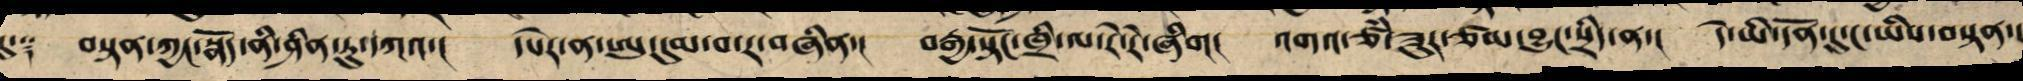དུ་༑ བསྟན་ཀྱང་སྣོད་ནི་ཤིན་ཏུ་དཀའ་། དཔེར་ན་ཨུ་དུམ་བ་ར་བཞིན་། བརྒྱ་སྟོང་ཁྲི་ལས་རེ་རེ་ཞིག། འགའ་ཙཾ་ཟུར་ཙམ་འབྱུང་སྲིད་ན་། དེ་ཡི་དོན་དུ་ང་ཡིས་བསྟན་།
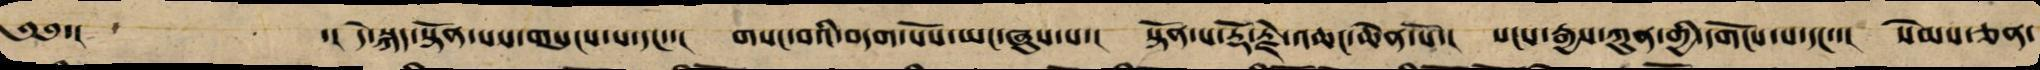༄༅་། ་། དེ་སྐད་སྟོན་པས་གསུངས་པ་དང་་། གསང་བའི་བདག་པོས་ཡང་ཞུས་པ་། སྟོན་པ་རྡོ་རྗེ་འཆང་ཆེན་པོ་། སངས་རྒྱས་ཀུན་གྱི་དགོངས་པ་དང་་། སེམས་ཅན་
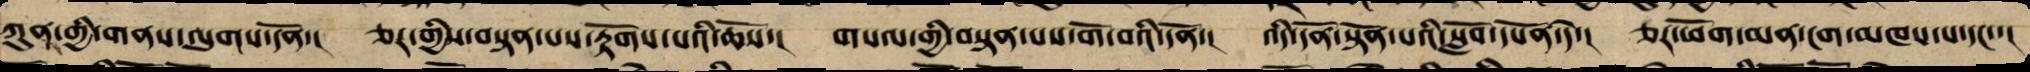ཀུན་གྱི་གནས་ལུགས་དོན་། ཅར་གྱིས་བསྟན་པས་རྟོགས་པའི་ཆོས་། གསལ་གྱི་བསྟན་པས་གོ་བའི་དོན་། འདི་དོན་སྟོན་པའི་སློབ་དཔོན་དེ་། ཅར་ཕོག་མན་ངག་མཁས་པ་དང་་།
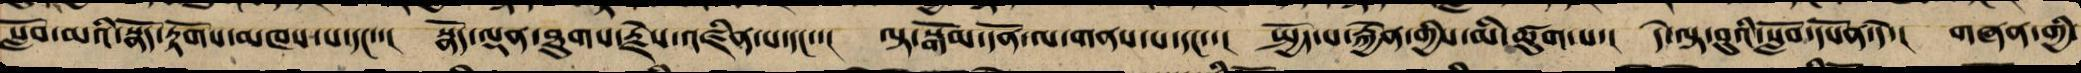སློབ་མའི་སྣོད་རྟོགས་མཁས་པ་དང་་། སྣོད་ལྡན་ཐུགས་རྗེས་འཛིན་པ་དང་་། ལྟ་སྒོམ་དོན་ལ་གནས་པ་དང་་། སྤྱོད་པ་རྐྱེན་གྱིས་མི་ཚུགས་པ་། དེ་ལྟ་བུའི་སློབ་དཔོན་དེ་། གཞན་གྱི་
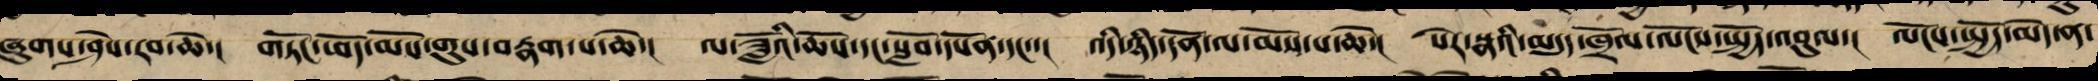ཞུགས་ཤེས་རབ་ཆེ་། གཏོང་ཕོད་མོས་གུས་བརྣགས་པ་ཆེ་། ལ་ཟློའི་ཆོས་དང་སློབ་དཔོན་དང་་། འདི་ཉིད་དོན་ལ་མོས་པ་ཆེ་། སེར་སྣའི་མདུད་ཁྲོལ་ལོངས་སྤྱོད་འབུལ་། ལོངས་སྤྱོད་མེད་ན་
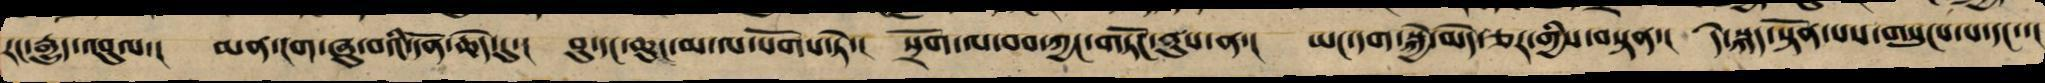རང་རྒྱུད་འབུལ་། མན་ངག་ཞུ་བའི་དོན་ཆེད་དུ་། བུ་དང་ཆུང་མ་ལ་སོགས་ཏེ་། སྲོག་ལ་བབ་ཀྱང་གཏོང་ནུས་ན་། ཡང་དག་སྐྱེ་མེད་ཅར་གྱིས་བསྟན་། དེ་སྐད་སྟོན་པས་གསུངས་པ་དང་་།
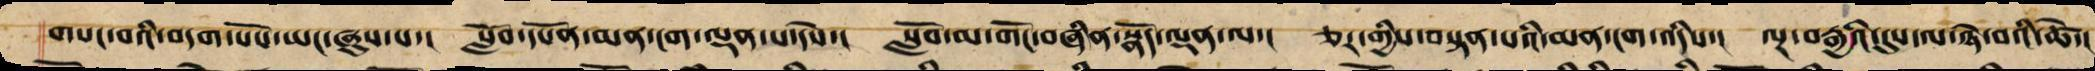གསང་བའི་བདག་པོས་ཡང་ཞུས་པ་། སློབ་དཔོན་མན་ངག་ལྡན་པ་དེས་། སློབ་མ་གོང་བཞིན་སྣོད་ལྡན་ལ་། ཅར་གྱིས་བསྟན་པའི་མན་ངག་འདིས་། ལྔ་བརྒྱའི་དུས་ལ་ཉེ་བའི་ཚེ་།
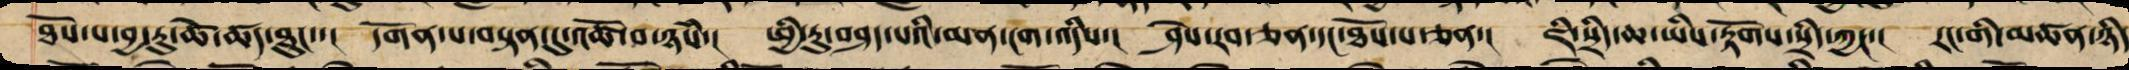ཐོས་པ་བྱ་རུ་ཚེ་ཚད་ཐུང་་། དགོན་པ་བསྟེན་དུ་འཚོ་བ་ཉཾས་། ཕྱི་རུ་བཤད་པའི་མན་ངག་འདིས་། ཤེས་རབ་ཅན་དང་ཐོས་པ་ཅན་། ཇི་སྲིད་ཆ་ཡིས་རྟོགས་སྲིད་ཀྱང་། རང་གི་མཚན་ཉིད
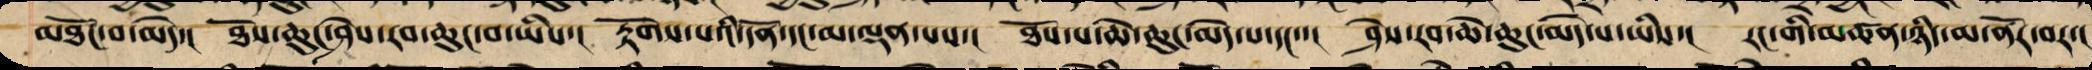མཐོང་བ་མེད་། ཐོས་ཆུང་ཤེས་རབ་ཆུང་བ་ཡིས་། རྟོགས་པའི་དོན་དང་མི་ལྡན་པས་། ཐོས་པ་ཆེ་ཆུང་མེད་པ་དང་་། ཤེས་རབ་ཆེ་ཆུང་མེད་པ་ཡིས་། རང་གི་མཚན་ཉིད་མ་ནོར་བར་།
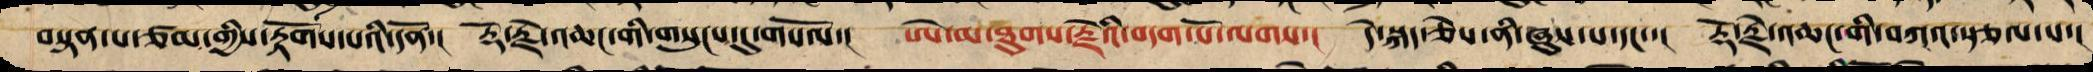བསྟན་པ་ཙམ་གྱིས་རྟོགས་པའི་དོན་། རྡོ་རྗེ་འཆང་གིས་གསུང་དུ་གསོལ་། ཨེ་མ་ཐུགས་རྗེའི་བདག་པོ་ལགས་། དེ་སྐད་ཅེས་ནི་ཞུས་པ་དང་་། རྡོ་རྗེ་འཆང་གིས་བཀའ་སྩལ་པ་།
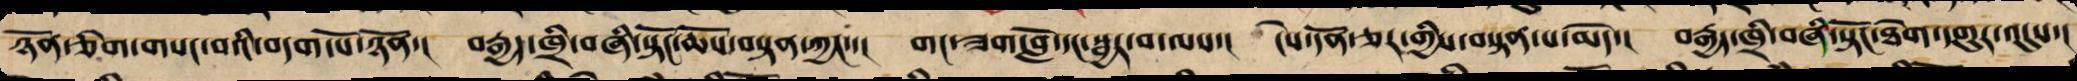ཉོན་ཅིག་གསང་བའི་བདག་པོ་ཉོན་། བརྒྱད་ཁྲི་བཞི་སྟོང་ཆོས་བསྟན་ཀྱང་་། གང་ཟག་བློ་དང་སྦྱར་བ་ལས་། ངེས་དོན་ཅར་གྱིས་བསྟན་པ་མེད་། བརྒྱད་ཁྲི་བཞི་སྟོང་ཐེག་དགུར་འདུས་།
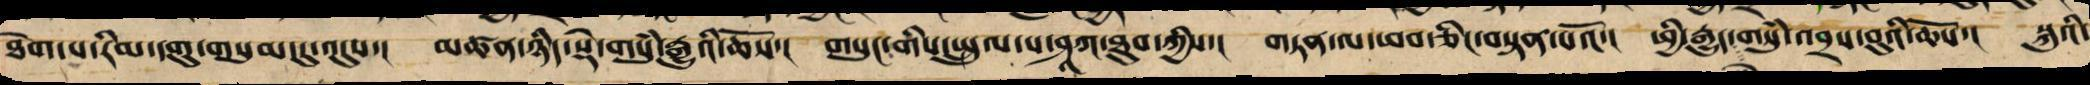ཐེག་པ་རིམ་དགུ་གསུམ་དུ་འདུས་། མཚན་ཉིད་སྡེ་གསུཾ་རྒྱུའི་ཆོས་། གསུང་གི་སྤྲུལ་པ་ཤཱཀ་ཐུབ་ཀྱིས་། གཏན་ལ་ཕབ་ཅིང་བསྟན་པའོ་། ཕྱི་རྒྱུད་གསུཾ་འབྲས་བུའི་ཆོས་། སྐུའི་
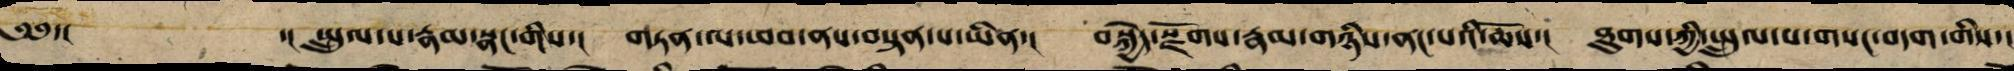༄༅་། ་། སྤྲུལ་པ་རྣམ་སྣང་གིས་། གཏན་ལ་ཕབ་ནས་བསྟན་པ་ཡིན་། བསྐྱེད་སྫོགས་རྣམ་གཉིས་ནང་པའི་ཆོས་། ཐུགས་ཀྱི་སྤྲུལ་པ་གསང་བདག་གིས་།
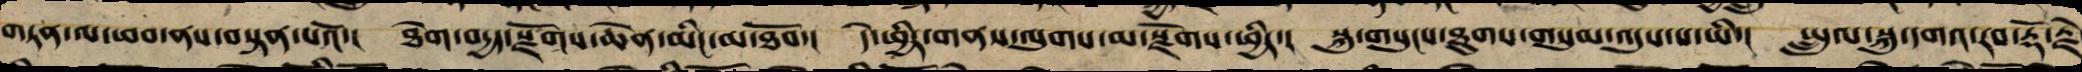གཏན་ལ་ཕབ་ནས་བསྟན་པའོ་། ཐེག་བདྱད་སྫོགས་ཆེན་མིང་མ་ཐོབ་། དེ་ཕྱིར་གནས་ལུགས་མ་སྫོགས་ཕྱིར་། སྐུ་གསུང་ཐུགས་གསུམ་འདུས་པ་ཡི་། སྤྲུལ་སྐུ་དགའ་རབ་རྡོ་རྗེ
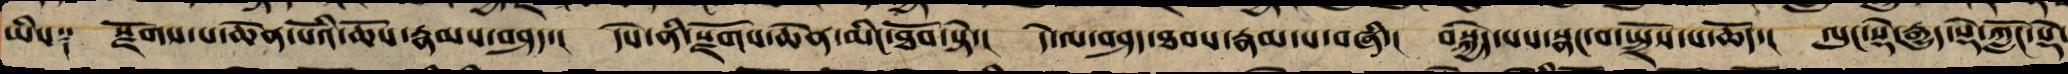ཡིས༑ སྫོགས་པ་ཆེན་པོའི་ཆོས་རྣམས་བཤད་། དེས་ནི་སྫོགས་ཆེན་མིང་ཐོབ་སྟེ་། དེ་ལ་བཤད་ཐབས་རྣམ་པ་བཞི་། བསྐྱེད་པས་སྣང་བ་སྤྲོས་པ་ཆོད་། ལུང་སྡེ་རྒྱུད་སྡེ་ཀློང་སྡེ་
